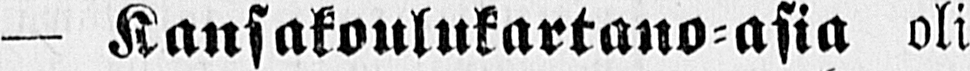— Kansakoulukartano-asia oli
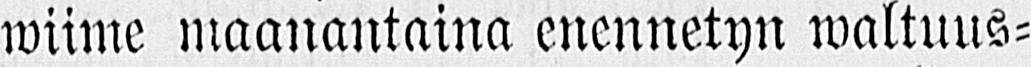wiime maanantaina enennetyn waltuus-
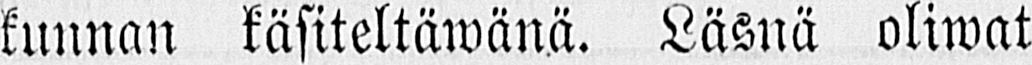kunnan käsiteltäwänä. Läsnä oliwat
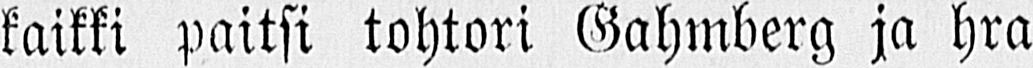kaikki paitsi tohtori Gahmberg ja hra
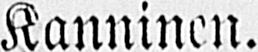Kanninen.
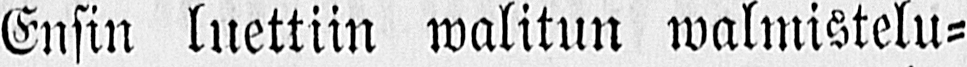Ensin luettiin walitun walmistelu-
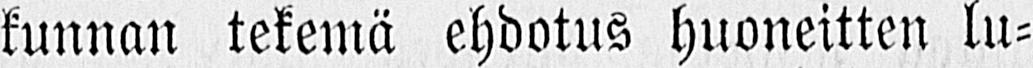kunnan tekemä ehdotus huoneitten lu-
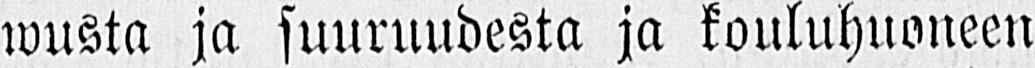wusta ja suuruudesta ja kouluhuoneen
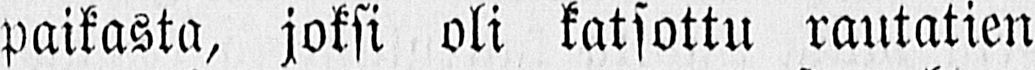paikasta, joksi oli katsottu rautatien
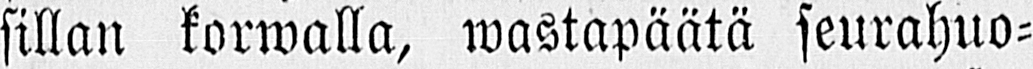sillan korwalla, wastapäätä seurahuo-
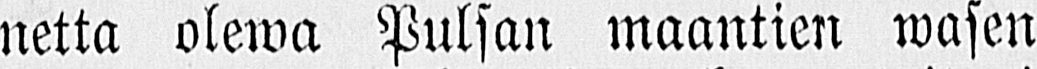netta olewa Pulsan maantien wasen
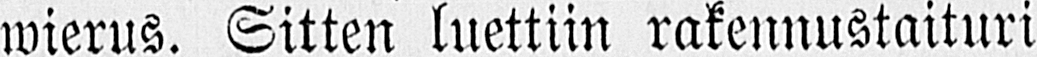wierus. Sitten luettiin rakennustaituri
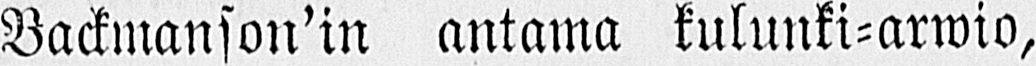Backmanson'in antama kulunki-arwio,
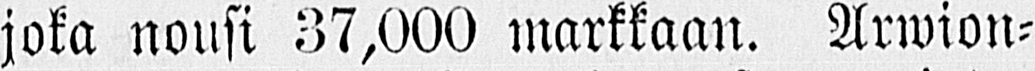joka nousi 37,000 markkaan. Arwion-
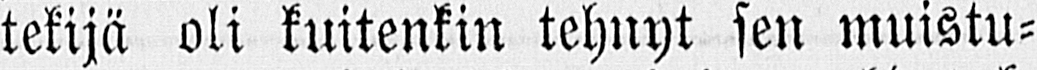tekijä oli kuitenkin tehnyt sen muistu-
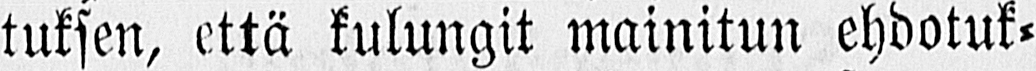tuksen, että kulungit mainitun ehdotuk-
